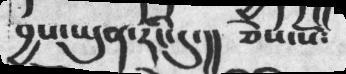བྱས་ཡུན་རིང་དུ་།།  ཅེས་སོ༴
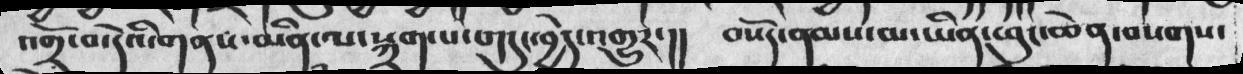འགྲོ་བ་དེའི་གནས་མིན་ལ་སྐྲགས་གདུང་བྱེད་འགྱུར་།།  བསོད་ནམས་མ་ཡིན་ཕུང་ཆེན་བསགས་
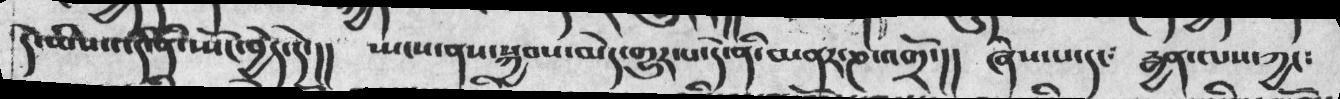དེ་ཡིས་འདི་ནི་སྤོང་བྱེད་དེ་།།  ཡངས་ནས་སྐྱབས་མེད་གྱུར་པ་དེ་ནི་གྱུར་པ་དེ་ནི་མནར་ཎ་འགྲོ་།།  ཞེས་པ་དང༴  རྒྱན་ལས་ཀྱང༴
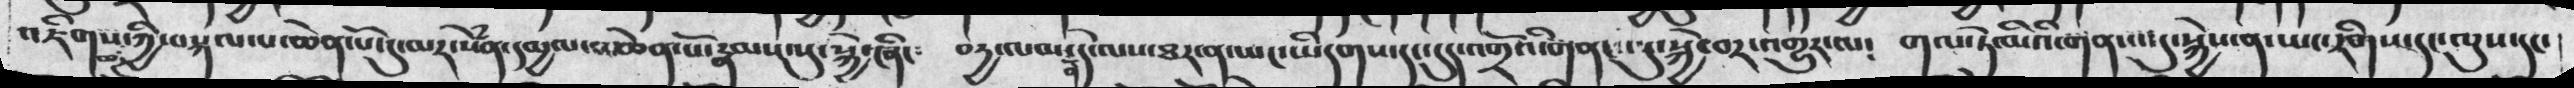འཇིགས་ཀྱི་བསྐལ་པ་ཆེན་པོ་དུ་མར་སེཾན་དམྱལ་བ་ཆེན་པོ་རྣམས་སུ་སྐྱེ་ཞིང༴   བརྱ་ལམ་ན་ཡང་ཡི་དགས་དང་དུད་འགྲོའི་གནས་སུ་སྐྱེ་བར་འགྱུར་ལ༴   གལ་ཏེ་མིའི་གནས་སུ་སྐྱེས་ན་ཡང་རིགས་དང་ལུས་དང་
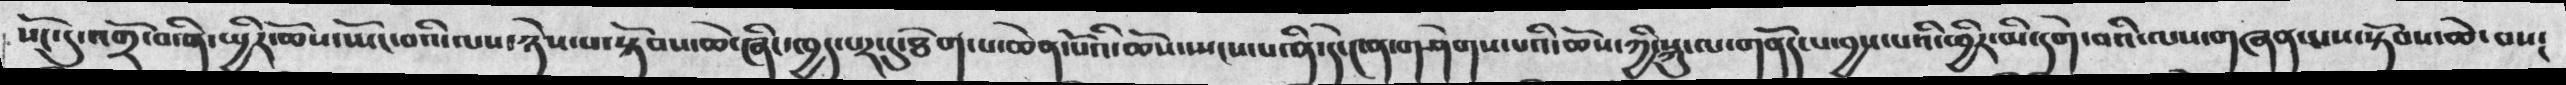སོང་དུ་འགྲོ་བ་ནི་སྤྱིར་ཆོས་སྤོང་བའི་ལས་ཉེས་པ་སྟོབས་ཆེ་ཞིང་ཁྱད་པར་དུ་ཐེག་པ་ཆེན་པོའི་ཆོས་སྤངས་པ་ནི་དེ་༤ན་གཤེགས་པའི་ཆོས་ཀྱི་སྐུ་ལ་གནོད་པ་བྱས་པའི་ཕྱིར་མི་དགེ་བའི་ལས་གཞན་པས་སྟོབས་ཆེ་བས༴
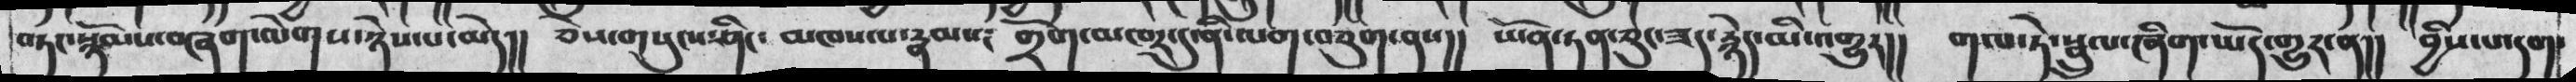བཏང་སྙོམས་བཞག་ལེགས་ཉེས་པ་མེད།།  ཅེས་གསུངས་ཤིང༴  མཁས་པ་རྣམས༴ གྲོག་མཁར་དུ་ནི་ལག་བཅུག་ནས།།  ཡོན་ཏན་ཅུང་ཟད་རྙེད་མི་འགྱུར།།  གལ་ཏེ་སྦྲུལ་ཞིག་ཡོད་གྱུར་ན།།  བྱིས་པ་དག་
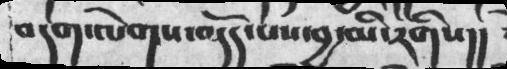བདག་ལེགས་འདོད་པས་བྱ་མི་རིགས།།
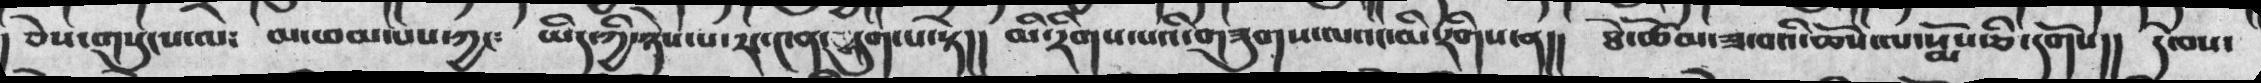ཅེས་གསུངས་ལེ་  མ་ཕམ་པས་ཀྱང་   ཡིད་ཀྱི་ཉེས་པ་རང་༤ན་ཟུག་པ་སྟེ།།    མི་རིགས་པའི་གཟུགས་ལའང་མི་རིགས་ན།།   ཐེ་ཚོམ་ཟ་བའི་ཆོས་ལ་སྨོས་ཅི་དགོས།།  དེ་བས་
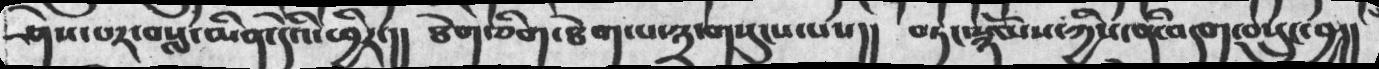ཤེས་པར་བསླ་མིན་དེའི་ཕྱིར་།།  ཐེག་ཅི་ཐེག་པ་༣་གསུངས་པས།།  བཏང་སྙོམས་ཀྱིས་ནི་བདག་བསྲུང་བྱ།།
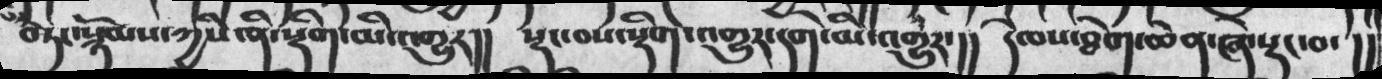བཏང་སྙོམས་ཀྱིས་ནི་སྡིག་མི་འགྱུར།།  སྡང་བས་སྡིག་འགྱུར་དགེ་མི་འགྱུར་།།  དེ་བས་ཐེག་ཆེན་ཞེ་སྡང་བ་།།
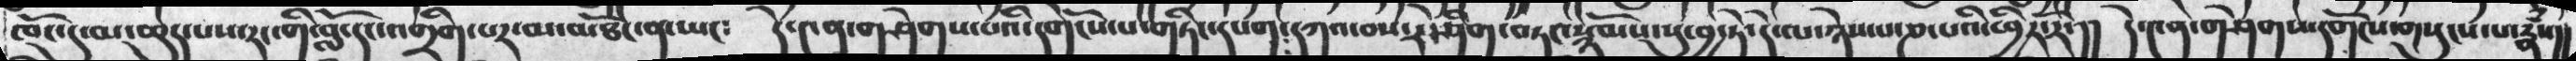ཁོང་དུ་མ་ཆུད་པས་རང་གི་བློ་དང་འགྲིག་པར་མཐོང་ན་ཡང༴  དེ་༤ན་གཤེགས་པའི་དགོངས་པ་གཏིང་དཔག་དཀའ་བས་རེ་ཤིག་བཏང་སྙོམས་སུ་བྱ་ཏེ་དེ་ལ་ཉེས་པ་ཎ་པའི་ཕྱིར་རོ་།།  དེ་༤ན་གཤེགས་དགོངས་གསུངས་པ་རྣཾས།།
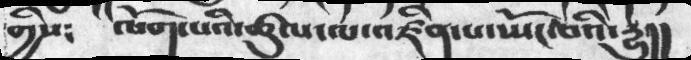གྱིས༴  ལོག་པའི་ཚུལ་ལ་ལ་འཛིན་པ་ཡོང་བའི་རྱུ།།
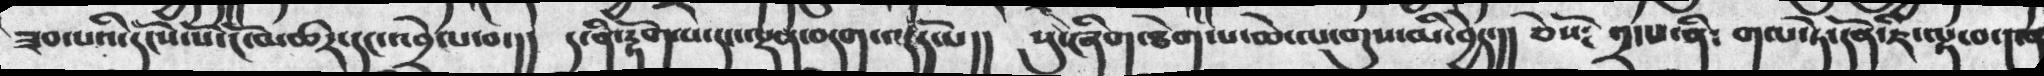ཟབ་པའི་དངོས་པོ་ངོ་མཚར་དང་འབྲེལ་བ་།།  ད་ནི་རྟོག་པ་དང་ལྡན་བདག་འདོད་པ།།  སུ་ཞིག་ཐེག་པ་ཆེན་ལ་གུས་མི་བྱེད་།།  ཅེསོ༴  ༢་པ་ནི༴  གལ་ཏེ་དོན་ཇི་ལྟ་བ་༤ན
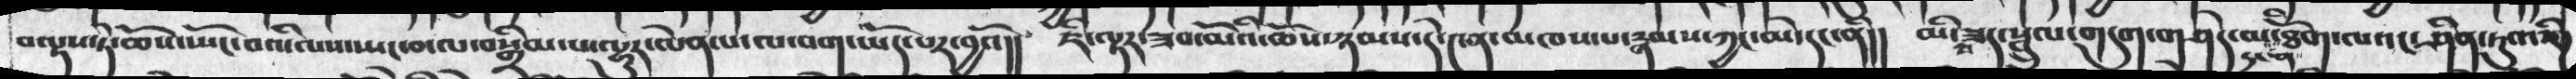བལྟས་སྟེ་ཆོས་་སྤོང་བའི་ལས་ཡང་མལ་བསྒྲུབ་པ་ལྷུར་ལེན་པ་ལ་བག་ཡོད་པར་བྱའོ།།  ཇི་ལྟར་ཟབ་མོའི་ཆོས་ཉམས་དེ་༤ན་མཁས་པ་རྣམས་ཀྱང་མེད་དང་ནི།།  མི་བཟད་སྦྲུལ་གདུག་གཤེད་མ་ཐོག་ལའང་ཤིན་ཏུ་གཟིཌ་
